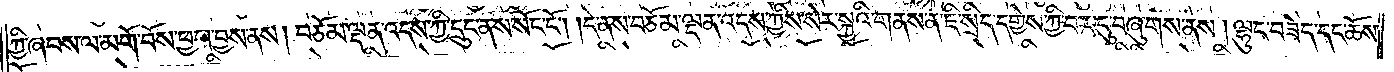ཀྱི་ཞབས་ལ་མགོ་བོས་ཕྱག་བྱས་ནས། བཅོམ་ལྡན་འདས་ཀྱི་དྲུང་ནས་སོང་ངོ༌། །དེ་ནས་བཅོམ་ལྡན་འདས་ཀྱིས་སེར་སྐྱའི་གནས་ན་ཇི་སྲིད་དགྱེས་ཀྱི་བར་དུ་བཞུགས་ནས། ལྷུང་བཟེད་དང་ཆོས་
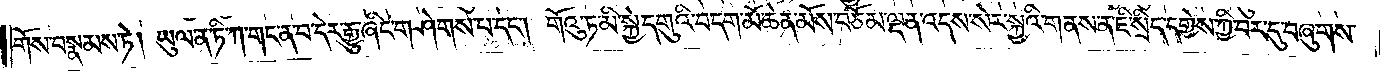གོས་བསྙམས་ཏེ། ཡུལ་ན་ཏི་ཀ་གང་ན་བ་དེར་རྒྱུ་ཞིང་གཤེགས་པ་དང༌། གོའུ་ཏ་མི་སྐྱེ་དགུའི་བདག་མོ་ཆེན་མོས་བཅོམ་ལྡན་འདས་སེར་སྐྱའི་གནས་ན་ཇི་སྲིད་དགྱེས་ཀྱི་བར་དུ་བཞུགས་
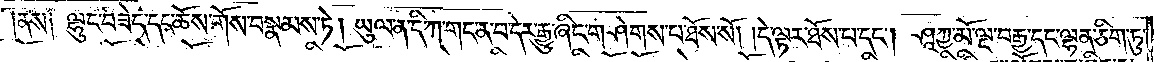ནས༑ ལྷུང་བཟེད་དང་ཆོས་གོས་བསྣམས་ཏེ། ཡུལ་ན་དི་ཀ་གང་ན་བ་དེར་རྒྱུ་ཞིང་གཤེགས་པ་ཐོས་སོ། །དེ་ལྟར་ཐོས་པ་དང༌། ཤཱཀྱ་མོ་ལྔ་བརྒྱ་དང་ལྷན་ཅིག་ཏུ་
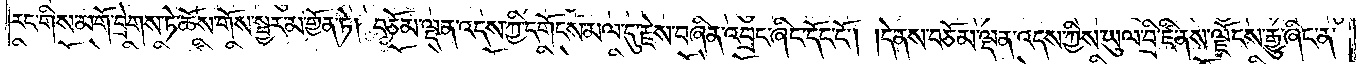རང་གིས་མགོ་བྲེགས་ཏེ་ཆོས་གོས་སྦྱར་མ་གྱོན་ཏེ། བཅོམ་ལྡན་འདས་ཀྱི་དགོངས་མལ་དུ་རྗེས་བཞིན་འབྲང་ཞིང་དོང་ངོ༌། །དེ་ནས་བཅོམ་ལྡན་འདས་ཀྱིས་ཡུལ་བྲི་ཛི་ནས་ལྗོངས་རྒྱུ་ཞིང་ན་
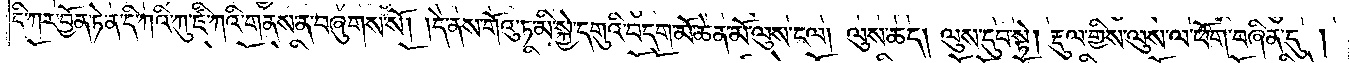དི་ཀར་བྱོན་ཏེ་ན་དི་ཀའི་ཀུ་ཛི་ཀའི་གནས་ན་བཞུགས་སོ། །དེ་ནས་གོའུ་ཏ་མི་སྐྱེ་དགུའི་བདག་མོ་ཆེན་མོ་ལུས་ངལ། ལུས་ཆད། ལུས་དུབ་སྟེ། རྡུལ་གྱིས་ལུས་ལ་ཕོག་བཞིན་དུ།
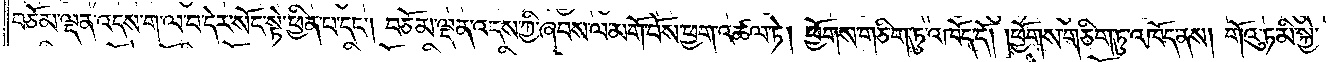བཅོམ་ལྡན་འདས་ག་ལ་བ་དེར་སོང་སྟེ་ཕྱིན་པ་དང༌། བཅོམ་ལྡན་འདས་ཀྱི་ཞབས་ལ་མགོ་བོས་ཕྱག་འཚལ་ཏེ། ཕྱོགས་གཅིག་ཏུ་འཁོད་དོ། །ཕྱོགས་གཅིག་ཏུ་འཁོད་ནས། གོའུ་ཏ་མི་སྐྱེ་
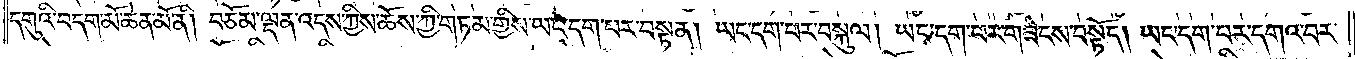དགུའི་བདག་མོ་ཆེན་མོ་ནི། བཅོམ་ལྡན་འདས་ཀྱིས་ཆོས་ཀྱི་གཏམ་གྱིས་ཡང་དག་པར་བསྟན། ཡང་དག་པར་བསྐུལ། ཡང་དག་པར་གཟེངས་བསྟོད། ཡང་དག་པར་དགའ་བར་
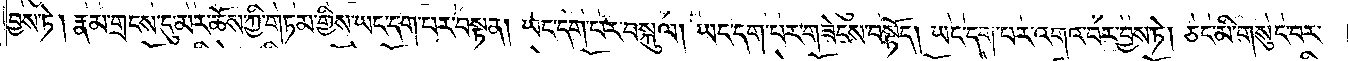བྱས་ཏེ། རྣམ་གྲངས་དུ་མར་ཆོས་ཀྱི་གཏམ་གྱིས་ཡང་དག་པར་བསྟན། ཡང་དག་པར་བསྐུལ། ཡང་དག་པར་གཟེངས་བསྟོད། ཡང་དག་པར་འགའ་བར་བྱས་ཏེ། ཅང་མི་གསུང་བར་
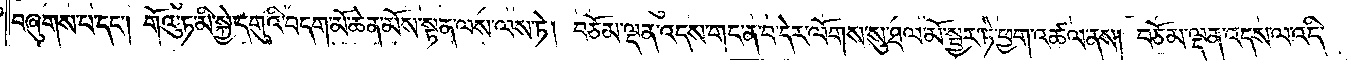བཞུགས་པ་དང༌། གོའུ་ཏ་མི་སྐྱེ་དགུའི་བདག་མོ་ཆེན་མོས་སྟན་ལས་ལས་ཏེ། བཅོམ་ལྡན་འདས་གང་ན་བ་དེར་ལོགས་སུ་ཐལ་མོ་སྦྱར་ཏེ་ཕྱག་འཚལ་ནས། བཅོམ་ལྡན་འདས་ལ་འདི་
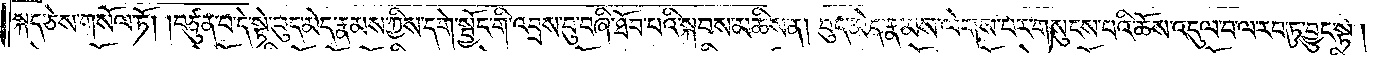སྐད་ཅེས་གསོལ་ཏོ། །བཙུན་པ་དེ་སྟེ་བུད་མེད་རྣམས་ཀྱིས་དགེ་སྦྱོང་གི་འབྲས་བུ་བཞི་ཐོབ་པའི་སྐབས་མཆིས་ན། བུད་མེད་རྣམས་ལེགས་པར་གསུངས་པའི་ཆོས་འདུལ་བ་ལ་རབ་ཏུ་བྱུང་སྟེ།
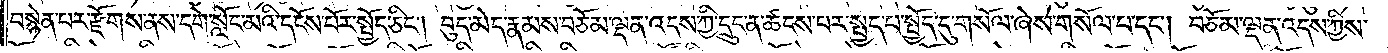བསྙེན་པར་རྫོགས་ནས་དགེ་སློང་མའི་དངོས་པོར་སྤྱོད་ཅིང༌། བུད་མེད་རྣམས་བཅོམ་ལྡན་འདས་ཀྱི་དྲུང་ན་ཚངས་པར་སྤྱད་པ་སྤྱོད་དུ་གསོལ་ཞེས་གསོལ་པ་དང༌། བཅོམ་ལྡན་འདས་ཀྱིས་
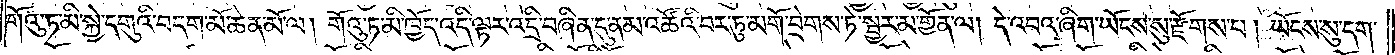གོའུ་ཏ་མི་སྐྱེ་དགུའི་བདག་མོ་ཆེན་མོ་ལ། གོའུ་ཏ་མི་ཁྱོད་འདི་ལྟར་འདྲི་བཞིན་དུ་ནམ་འཚོའི་བར་དུ་མགོ་བྲེགས་ཏེ་སྦྱར་མ་གྱོན་ལ། དེ་འབའ་ཞིག་ཡོངས་སུ་རྫོགས་པ། ཡོངས་སུ་དག་
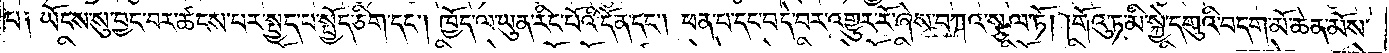པ༑ ཡོངས་སུ་བྱང་བར་ཚངས་པར་སྤྱད་པ་སྤྱོད་ཅིག་དང༌། ཁྱོད་ལ་ཡུན་རིང་པོའི་དོན་དང༌། ཕན་པ་དང་བདེ་བར་འགྱུར་རོ་ཞེས་བཀའ་སྩལ་ཏོ། །གོའུ་ཏ་མི་སྐྱེ་དགུའི་བདག་མོ་ཆེན་མོས་
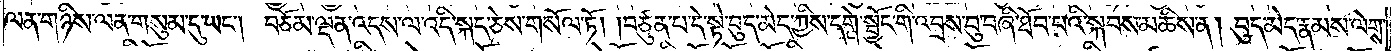ལན་གཉིས་ལན་གསུམ་དུ་ཡང༌། བཅོམ་ལྡན་འདས་ལ་འདི་སྐད་ཅེས་གསོལ་ཏོ། །བཙུན་པ་དེ་སྟེ་བུད་མེད་ཀྱིས་དགེ་སྦྱོང་གི་འབྲས་བུ་བཞི་ཐོབ་པའི་སྐབས་མཆིས་ན། བུད་མེད་རྣམས་ལེགས་
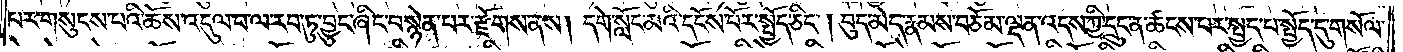པར་གསུངས་པའི་ཆོས་འདུལ་བ་ལ་རབ་ཏུ་བྱུང་ཞིང་བསྙེན་པར་རྫོགས་ནས། དགེ་སློང་མའི་དངོས་པོར་སྤྱོད་ཅིང༌། བུད་མེད་རྣམས་བཅོམ་ལྡན་འདས་ཀྱི་དྲུང་ན་ཚངས་པར་སྤྱད་པ་སྤྱོད་དུ་གསོལ་
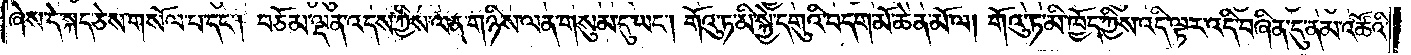ཞེས་དེ་སྐད་ཅེས་གསོལ་པ་དང༌། བཅོམ་ལྡན་འདས་ཀྱིས་ལན་གཉིས་ལན་གསུམ་དུ་ཡང༌། གོའུ་ཏ་མི་སྐྱེ་དགུའི་བདག་མོ་ཆེན་མོ་ལ། གོའུ་ཏ་མི་ཁྱོད་ཀྱིས་འདི་ལྟར་འདི་བཞིན་དུ་ནམ་འཚོའི་
